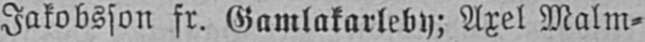Jakobsson fr. Gamlakarleby; Axel Malm-
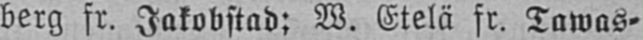berg fr. Jakobstad; W. Etelä fr. Tawas-
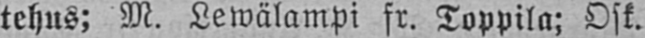tehus; M. Lewälampi fr. Toppila: Osk.
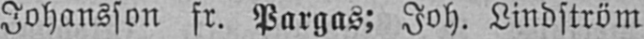Johansson fr. Pargas; Joh. Lindström
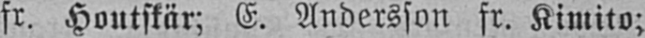fr. Houtskär; E. Andersson fr. Kimito;
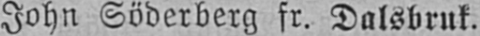John Söderberg fr. Dalsbruk.
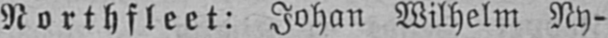Northfleet: Johan Wilhelm Ny-
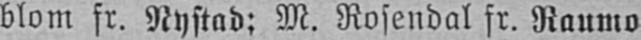blom fr. Nystad; M. Rosendal fr. Raumo
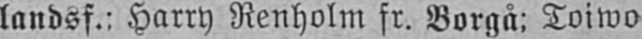landsf.: Harry Renholm fr. Borgå: Toiwo
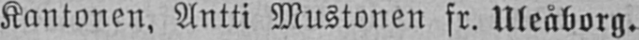Kantonen, Antti Mustonen fr. Uleåborg.
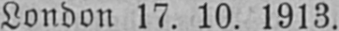London 17. 10. 1913.
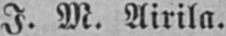I. M. Airila.
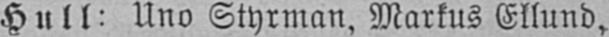Hull: Uno Styrman, Markus Ellund,
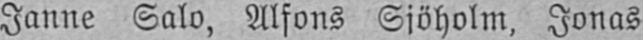Janne Salo, Alfons Sjöholm, Jonas
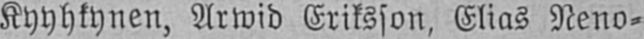Kyyhkynen, Arwid Eriksson, Elias Neno-
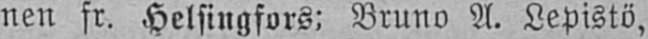nen fr. Helsingfors: Bruno A. Lepistö,
